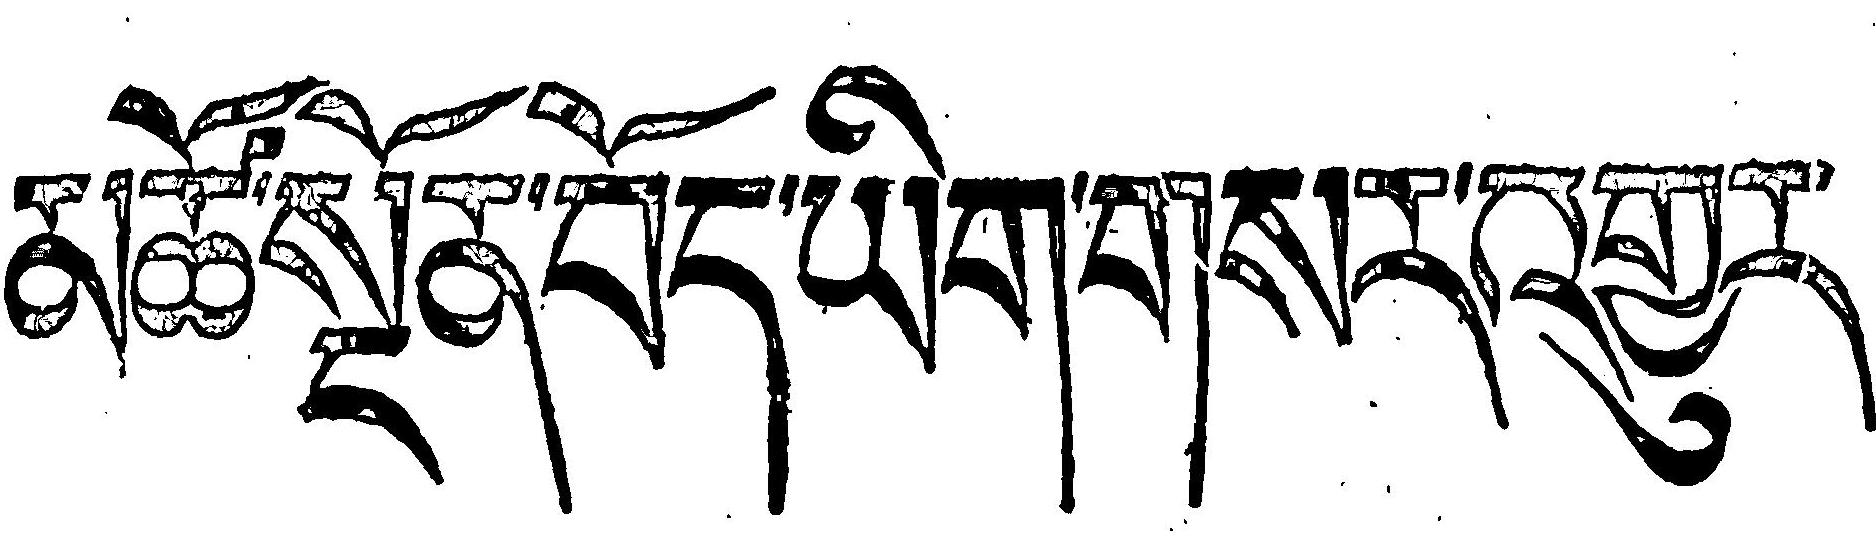མཚོ་སྔོན་བོད་ཡིག་གསར་འགྱུར་
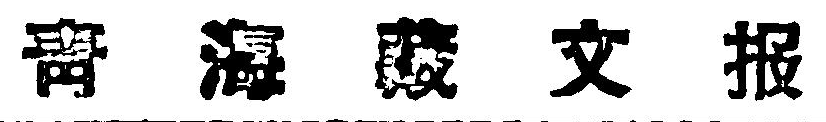靑 海 藏 文 报
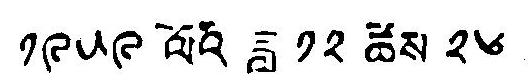༡༩༥༩ ལོའི ཟླ ༡༢ ཚེས ༢༦
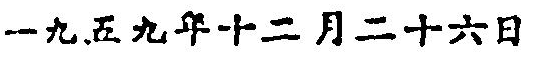一九五九年十二月二十六日
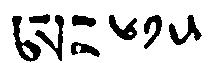ཨང ༦༡༥
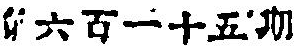第六百一十五期
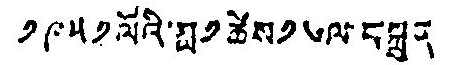༡༩༥༡ ལོའི་ཟླ ༡ ཚེས ༡༦ ལ བསྐྲུན
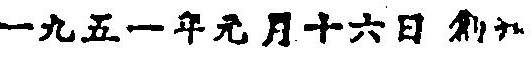一九五一年元月十六日 創刊
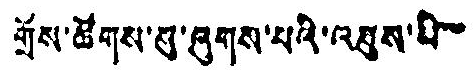གྲོས་ཚོགས་སུ་ཞུགས་པའི་འཐུས་མི་་་
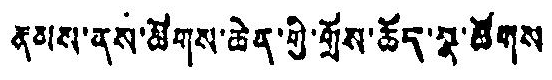རྣམས་ནས་ཚོགས་ཆེན་གྱི་གྲོས་ཆོད་སྣ་ཚོགས
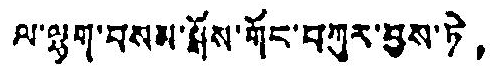ལ་ལྷག་བསམ་སྒོས་གོང་བཀུར་བྱས་ཏེ，
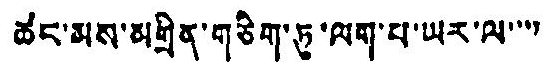ཚང་མས་མགྲིན་གཅིག་ཏུ་ལག་པ་ཡར་ལ་་་་
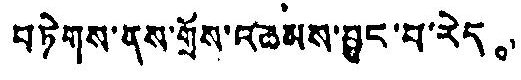བཏེགས་ནས་གྲོས་འཆམས་བྱུང་བ་རེད。
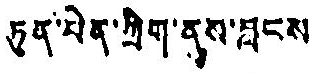ཏུན་པེན་ཀྲིག་ནས་བླངས།
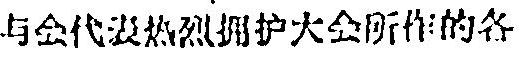与会代表热烈拥护大会所作的各
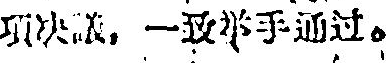項決議，一致举手通过。
